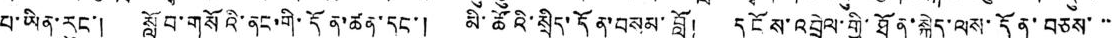པ་ཡིན་རུང་། སློབ་གསོའི་ནང་གི་དོན་ཚན་དང་། མི་ཚོའི་སྲིད་དོན་བསམ་བློ། དངོས་འབྲེལ་གྱི་ཐོན་སྐྱེད་ལས་དོན་བཅས་་་
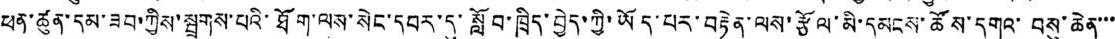ཕན་ཚུན་དམ་ཟབ་ཀྱིས་སྦྲགས་པའི་ཐོག་ལས་སེང་དབར་དུ་སློབ་ཁྲིད་བྱེད་ཀྱི་ཡོད་པར་བརྟེན་ལས་རྩོལ་མི་དམངས་ཚོས་དགའ་བསུ་ཆེན་་་
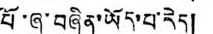པོ་ཞུ་བཞིན་ཡོད་པ་རེད།
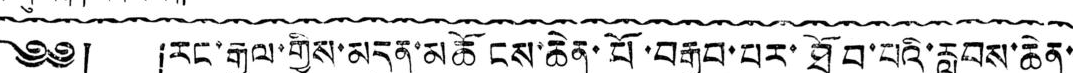༄༅། །རང་རྒྱལ་གྱིས་མདུན་མཆོངས་ཆེན་པོ་བརྒྱབ་པར་ཐོབ་པའི་རླབས་ཆེན་
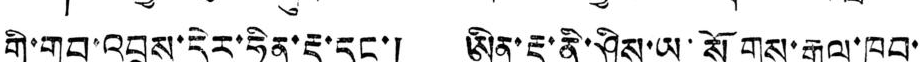གྱི་གྲུབ་འབྲས་དེར་ཧིན་རྡུ་དང་། ཨིན་རྡུ་ནི་ཤིས་ཡ་སོགས་རྒྱལ་ཁབ་
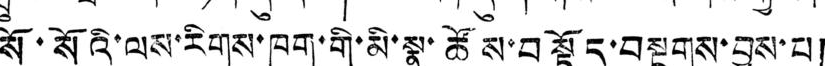སོ་སོའི་ལས་རིགས་ཁག་གི་མི་སྣ་ཚོས་བསྟོད་བསྔགས་བྱས་པ།
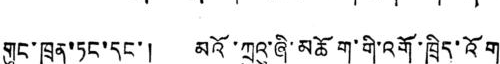གུང་ཁྲན་ཏང་དང་། མའོ་ཀྲུའུ་ཞི་མཆོག་གི་འགོ་ཁྲིད་འོག
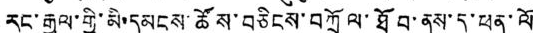རང་རྒྱལ་གྱི་མི་དམངས་ཚོས་བཅིངས་བཀྲོལ་ཐོབ་ནས་ད་ཕན་ལོ
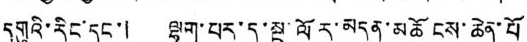དགུའི་རིང་དང་། ལྷག་པར་དུ་སྔ་ལོར་མདུན་མཆོངས་ཆེན་པོ་
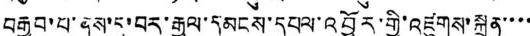བརྒྱབ་པ་ནས་ད་བར་རྒྱལ་དམངས་དཔལ་འབྱོར་གྱི་འཛུགས་སྐྲུན་་་་
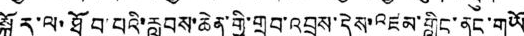སྐོར་ལ་ཐོབ་པའི་རླབས་ཆེན་གྱི་གྲུབ་འབྲས་དེས་འཛམ་གླིང་ནང་གཡོ
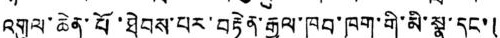འགུལ་ཆེན་པོ་ཐེབས་པར་བརྟེན་རྒྱལ་ཁབ་ཁག་གི་མི་སྣ་དང་།
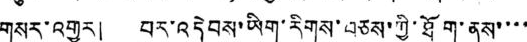གསར་འགྱུར། བར་འདེབས་ཡིག་རིགས་བཅས་ཀྱི་ཐོག་ནས་་་་
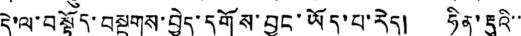དེ་ལ་བསྟོད་བསྔགས་བྱེད་དགོས་བྱུང་ཡོད་པ་རེད། ཧིན་རྡུའི་་་
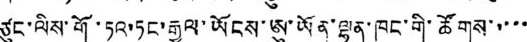ཙུང་ལིས་གོ་ཏའ་ཏང་རྒྱལ་ཡོངས་ཨུ་ཡོན་ལྷན་ཁང་གི་ཚོགས་་་་་
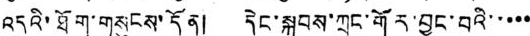འདུའི་ཐོག་གསུངས་དོན། དེང་སྐབས་ཀྲུང་གོར་བྱུང་བའི་་་་་
